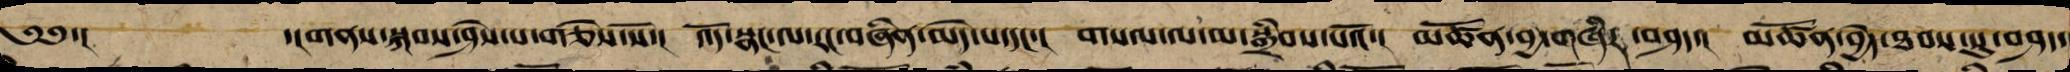༄༅་། ་།གནས་སྐབས་ཤེས་པ་གཅེས་སོ་། འོད་སྣང་ལ་རང་བཞིན་མེད་པ་དང་། གསལ་ལ་མ་སྒྲིབས་པའོ་། མཚོན་བྱ་གཞིར་བཤད་། མཚོན་བྱེད་ཐབས་སུ་བཤད་
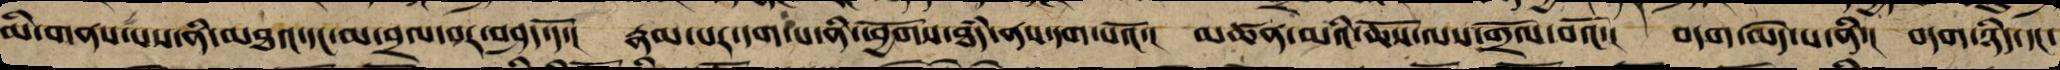མི་གནས་པས་ནི་མཐའ་དང་མ་བྲལ་བར་བཤད་དོ་། རྣམ་པར་དག་པ་ནི་ཕྱོགས་ཐཾད་ནས་དག་པའོ་། མཚན་མའི་ཆོས་ལས་གྲོལ་བའོ་། བདག་མེད་པ་ནི་། བདག་ཉིད་དང་
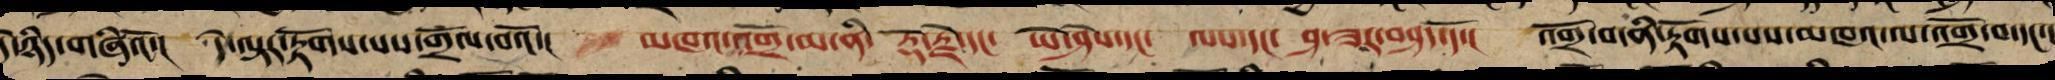དེ་ཉིད་གཞིའོ་། དེ་ལྟར་རྟོགས་པས་གྲོལ་བའོ་། མཁའ་འགྲོ་མ་ནི་ རྡོ་རྗེ་དང་ ཡེ་ཤེས་དང་ ལས་དང་ ཤ་ཟར་བཤད་དོ་། འགྲོ་བ་ནི་རྟོགས་པས་མཁའ་ལ་འགྲོ་བ་དང་།
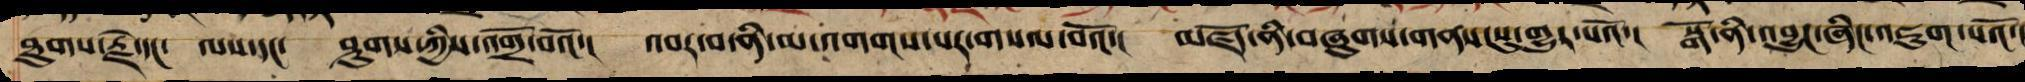ཐུགས་རྗེ་དང་ ལས་དང་ ཤུགས་ཀྱིས་འགྲོ་བའོ་། འབར་བ་ནི་མ་འགགས་པར་གསལ་བའོ་། མཛོད་ནི་བཞུགས་གནས་སུ་གྱུར་པའོ་། སྒོ་ནི་འབྱུང་ཞིང་འཇུག་པའོ་།
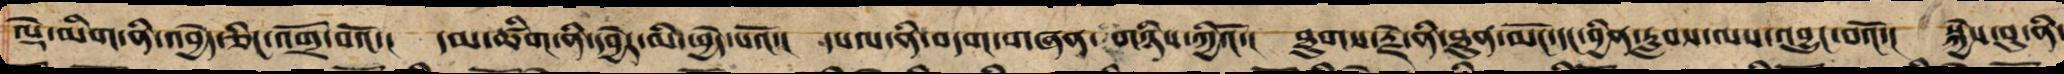ལྡེ་མིག་ནི་འབྱེད་ཅིང་འགྲོ་བའོ་། དམ་ཚིག་ནི་དབྱེར་མི་ཕྱེད་པའོ་། དཔལ་ནི་བདག་གཞན་གཉིས་ཀྱིའོ་། ཐུགས་རྗེ་ནི་ཐུན་མོང་དང་བྱིན་རླབས་ལས་བྱུང་བའོ་། སྐྱེས་བུ་ནི་
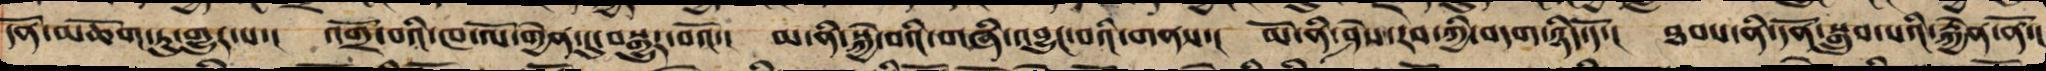དོན་མཆོག་ཏུ་གྱུར་པ་། འགྲོ་བའི་ཁ་ལོ་གྱེན་དུ་བསྒྱུར་བའོ་། མ་ནི་སྐྱེ་བའི་གཞི་འབྱུང་བའི་གནས་། མོ་ནི་ཤེས་རབ་ཀྱི་བདག་ཉིད་དོ་། ཐབས་ནི་དོན་སྒྲུབ་པའི་རྐྱེན་ནོ་།
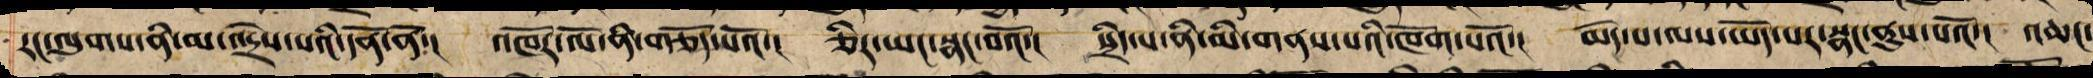རང་ལུགས་ནི་མ་འདྲེས་པའི་དོན་ནོ་། འཁོར་ལོ་ནི་གཅོད་པའོ་། ཅིར་ཡང་སྣང་བའོ་། སྲིད་པ་ནི་མི་གནས་པའི་ཁོག་པའོ་། མེད་པ་ལས་ཡོད་པར་སྣང་ནུས་པའོ་། འཆང་
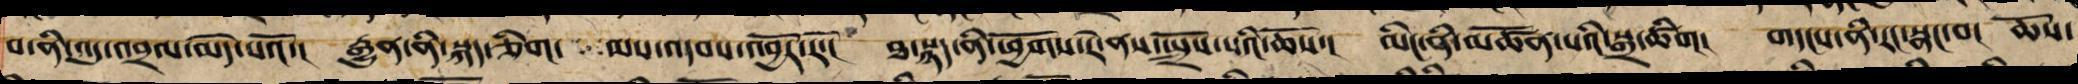བ་ནི་འདུ་འབྲལ་མེད་པའོ་། རྒྱུན་ནི་སྐད་ཅིག་ མས་འདབས་འབྱོར་རོ་། ཐ་སྙད་ནི་ཕྱོགས་རེ་ནས་སྤྲོས་པའི་ཆོས་། མིང་ནི་མཚོན་པའི་སྒྲ་ཚིག། གདངས་ནི་རང་སྣང་བ། ཆོས་
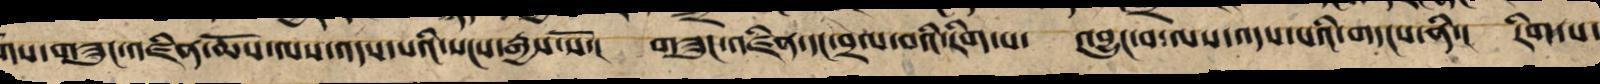གས་གཟུང་འཛིན་ཆོས་ལས་འདས་པའི་སངས་རྒྱས་སོ་། གཟུང་འཛིན་དང་བྲལ་བའི་རིག་པ་ འབྱུང་བ་ལས་འདས་པའི་གདངས་ནི་། རིག་པ་
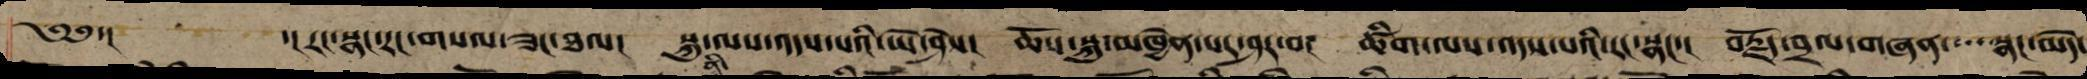༄༅་། ་།རང་སྣང་རང་གསལ་ཟང་ཐལ། སྐུ་ལས་འདས་པའི་ཡེ་ཤེས། ཆོས་སྐུ་མཁྱེན་པར་ཤར་བ། ཚིག་ལས་འདས་པའི་རང་སྣང་། བརྗོད་བྲལ་གཞན་་་་སྣང་མེད་
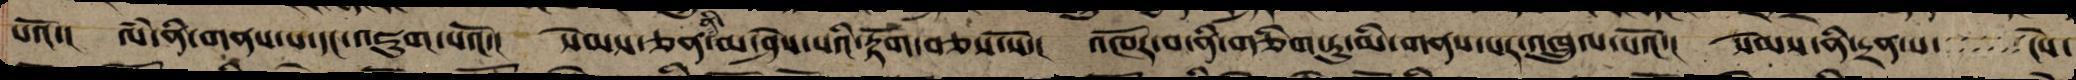པའོ་། ལཾ་ནི་གནས་པ་དང་འཇུག་པའོ་། སེམས་ཅན་མ་ཤེས་པའི་རྟོག་བཅས་སོ་། འཁོར་བ་ནི་གཅིག་ཏུ་མི་གནས་པར་འཁྲུལ་པའོ་། སེམས་ནི་དྲན་པ་   ངེས་
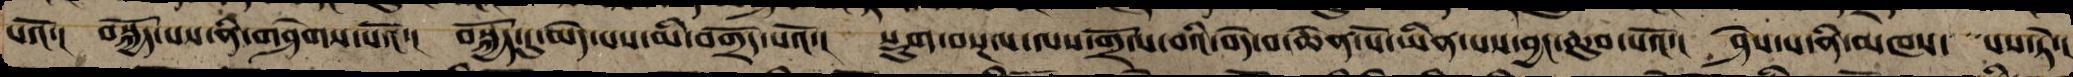པའོ་། བསྐྱོད་པས་ནི་གཤེགས་པའོ་། བསྐྱོད་དུ་མེད་པས་མི་བགྲོད་པའོ་། སྡུག་བསྔལ་ལས་གྲོལ་བའི་བདེ་བ་ཆེན་པོ་ཡིན་པས་བྱང་ཆུབ་པའོ་། ཤེས་པ་ནི་མཁས་ པས་ཏེ་།
